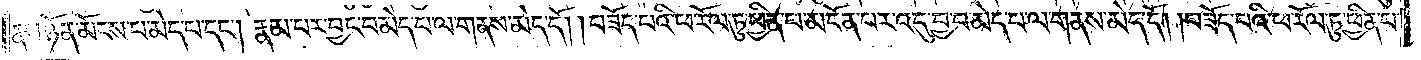ནས་ཉོན་མོངས་པ་མེད་པ་དང༌། རྣམ་པར་བྱང་བ་མེད་པ་ལ་གནས་མེད་དོ། །བཟོད་པའི་ཕ་རོལ་ཏུ་ཕྱིན་པ་མངོན་པར་འདུ་བྱ་བ་མེད་པ་ལ་གནས་མེད་དོ། །བཟོད་པའི་ཕ་རོལ་ཏུ་ཕྱིན་པ་
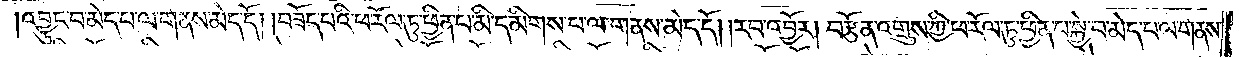འབྱུང་བ་མེད་པ་ལ་གནས་མེད་དོ། །བཟོད་པའི་ཕ་རོལ་ཏུ་ཕྱིན་པ་མི་དམིགས་པ་ལ་གནས་མེད་དོ། །རབ་འབྱོར། བརྩོན་འགྲུས་ཀྱི་ཕ་རོལ་ཏུ་ཕྱིན་པ་སྐྱེ་བ་མེད་པ་ལ་གནས་
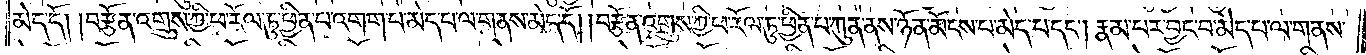མེད་དོ། །བརྩོན་འགྲུས་ཀྱི་ཕ་རོལ་ཏུ་ཕྱིན་པ་འགག་པ་མེད་པ་ལ་གནས་མེད་དོ། །བརྩོན་འགྲུས་ཀྱི་ཕ་རོལ་ཏུ་ཕྱིན་པ་ཀུན་ནས་ཉོན་མོངས་པ་མེད་པ་དང༌། རྣམ་པར་བྱང་བ་མེད་པ་ལ་གནས་
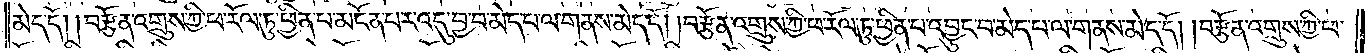མེད་དོ། །བརྩོན་འགྲུས་ཀྱི་ཕ་རོལ་ཏུ་ཕྱིན་པ་མངོན་པར་འདུ་བྱ་བ་མེད་པ་ལ་གནས་མེད་དོ། །བརྩོན་འགྲུས་ཀྱི་ཕ་རོལ་ཏུ་ཕྱིན་པ་འབྱུང་བ་མེད་པ་ལ་གནས་མེད་དོ། །བརྩོན་འགྲུས་ཀྱི་ཕ་
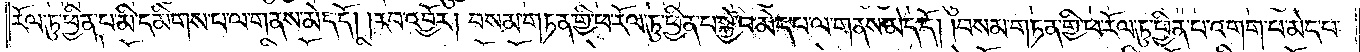རོལ་ཏུ་ཕྱིན་པ་མི་དམིགས་པ་ལ་གནས་མེད་དོ། །རབ་འབྱོར། བསམ་གཏན་གྱི་ཕ་རོལ་ཏུ་ཕྱིན་པ་སྐྱེ་བ་མེད་པ་ལ་གནས་མེད་དོ། །བསམ་གཏན་གྱི་ཕ་རོལ་ཏུ་ཕྱིན་པ་ལ་འགག་པ་མེད་པ་
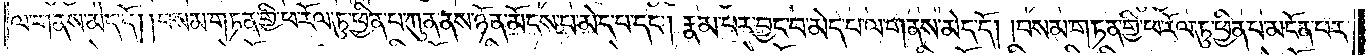ལ་གནས་མེད་དོ། །བསམ་གཏན་གྱི་ཕ་རོལ་ཏུ་ཕྱིན་པ་ཀུན་ནས་ཉོན་མོངས་པ་མེད་པ་དང༌། རྣམ་པར་བྱང་བ་མེད་པ་ལ་གནས་མེད་དོ། །བསམ་གཏན་གྱི་ཕ་རོལ་ཏུ་ཕྱིན་པ་མངོན་པར་
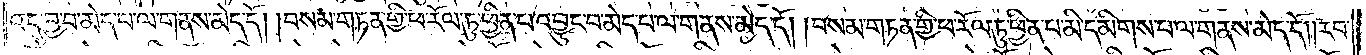འདུ་བྱ་བ་མེད་པ་ལ་གནས་མེད་དོ། །བསམ་གཏན་གྱི་ཕ་རོལ་ཏུ་ཕྱིན་པ་འབྱུང་བ་མེད་པ་ལ་གནས་མེད་དོ། །བསམ་གཏན་གྱི་ཕ་རོལ་ཏུ་ཕྱིན་པ་མི་དམིགས་པ་ལ་གནས་མེད་དོ། །རབ་
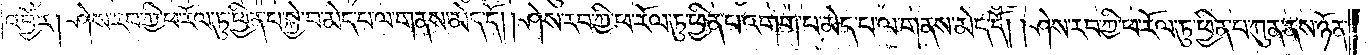འབྱོར། ཤེས་རབ་ཀྱི་ཕ་རོལ་ཏུ་ཕྱིན་པ་སྐྱེ་བ་མེད་པ་ལ་གནས་མེད་དོ། །ཤེས་རབ་ཀྱི་ཕ་རོལ་ཏུ་ཕྱིན་པ་འགག་པ་མེད་པ་ལ་གནས་མེད་དོ། །ཤེས་རབ་ཀྱི་ཕ་རོལ་ཏུ་ཕྱིན་པ་ཀུན་ནས་ཉོན་
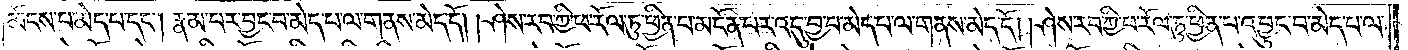མོངས་པ་མེད་པ་དང༌། རྣམ་པར་བྱང་བ་མེད་པ་ལ་གནས་མེད་དོ། །ཤེས་རབ་ཀྱི་ཕ་རོལ་ཏུ་ཕྱིན་པ་མངོན་པར་འདུ་བྱ་བ་མེད་པ་ལ་གནས་མེད་དོ། །ཤེས་རབ་ཀྱི་ཕ་རོལ་ཏུ་ཕྱིན་པ་འབྱུང་བ་མེད་པ་ལ་
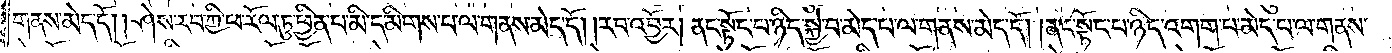གནས་མེད་དོ། །ཤེས་རབ་ཀྱི་ཕ་རོལ་ཏུ་ཕྱིན་པ་མི་དམིགས་པ་ལ་གནས་མེད་དོ། །རབ་འབྱོར། ནང་སྟོང་པ་ཉིད་སྐྱེ་བ་མེད་པ་ལ་གནས་མེད་དོ། །ནང་སྟོང་པ་ཉིད་འགག་པ་མེད་པ་ལ་གནས་
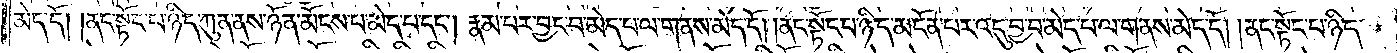མེད་དོ། །ནང་སྟོང་པ་ཉིད་ཀུན་ནས་ཉོན་མོངས་པ་མེད་པ་དང༌། རྣམ་པར་བྱང་བ་མེད་པ་ལ་གནས་མེད་དོ། །ནང་སྟོང་པ་ཉིད་མངོན་པར་འདུ་བྱ་བ་མེད་པ་ལ་གནས་མེད་དོ། །ནང་སྟོང་པ་ཉིད་
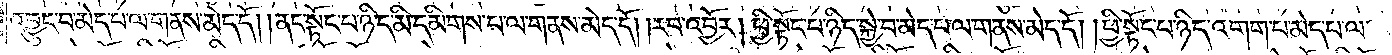འབྱུང་བ་མེད་པ་ལ་གནས་མེད་དོ། །ནང་སྟོང་པ་ཉིད་མི་དམིགས་པ་ལ་གནས་མེད་དོ། །རབ་འབྱོར། ཕྱི་སྟོང་པ་ཉིད་སྐྱེ་བ་མེད་པ་ལ་གནས་མེད་དོ། །ཕྱི་སྟོང་པ་ཉིད་འགག་པ་མེད་པ་ལ་
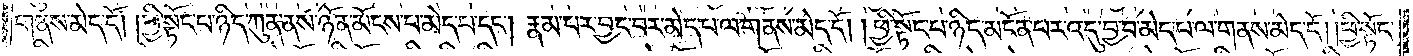གནས་མེད་དོ། །ཕྱི་སྟོང་པ་ཉིད་ཀུན་ནས་ཉོན་མོངས་པ་མེད་པ་དང༌། རྣམ་པར་བྱང་བ་མེད་པ་ལ་གནས་མེད་དོ། །ཕྱི་སྟོང་པ་ཉིད་མངོན་པར་འདུ་བྱ་བ་མེད་པ་ལ་གནས་མེད་དོ། །ཕྱི་སྟོང་
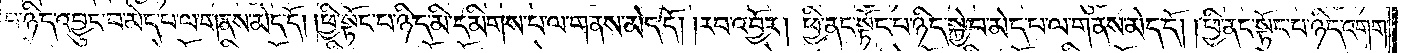པ་ཉིད་འབྱུང་བ་མེད་པ་ལ་གནས་མེད་དོ། །ཕྱི་སྟོང་པ་ཉིད་མི་དམིགས་པ་ལ་གནས་མེད་དོ། །རབ་འབྱོར། ཕྱི་ནང་སྟོང་པ་ཉིད་སྐྱེ་བ་མེད་པ་ལ་གནས་མེད་དོ། །ཕྱི་ནང་སྟོང་པ་ཉིད་འགག་
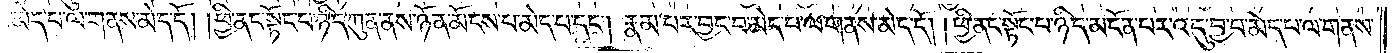པ་མེད་པ་ལ་གནས་མེད་དོ། །ཕྱི་ནང་སྟོང་པ་ཉིད་ཀུན་ནས་ཉོན་མོངས་པ་མེད་པ་དང༌། རྣམ་པར་བྱང་བ་མེད་པ་ལ་གནས་མེད་དོ། །ཕྱི་ནང་སྟོང་པ་ཉིད་མངོན་པར་འདུ་བྱ་བ་མེད་པ་ལ་གནས་
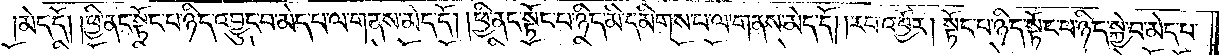མེད་དོ། །ཕྱི་ནང་སྟོང་པ་ཉིད་འབྱུང་བ་མེད་པ་ལ་གནས་མེད་དོ། །ཕྱི་ནང་སྟོང་པ་ཉིད་མི་དམིགས་པ་ལ་གནས་མེད་དོ། རབ་འབྱོར། སྟོང་པ་ཉིད་སྟོང་པ་ཉིད་སྐྱེ་བ་མེད་པ་
